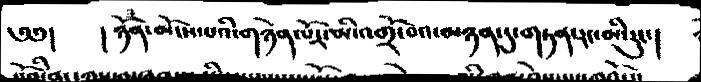༄༅།    །ཉོན་མོངས་པའི་གཉེན་པོར་མི་འགྲོ་བའ་མཉན་དུ་གཏན་རང་མི་རུང་།
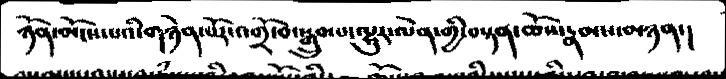ཉོན་མོངས་པའི་གཉེན་པོར་འགྲོ་བ་སྒྲུབ་པ་ལྷུར་ལེན་གྱི་བསྟན་ཆོས་རྣམས་མཉན་།
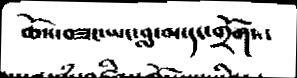ཆོས་བཟང་ཡང་བླ་བ་དང་གྲོགས་
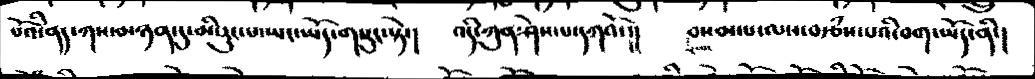པོའི་ནད་ཀས་མཉན་དུ་མི་རུང་པ་ཡང་ཡོད་གསུང་སྟེ་།    འདི་ཀུན་ཤེས་པ་དཀའོ་།།    བསམ་པ་ལས་བརྩཾས་པའི་བག་ཡོད་ནི་།
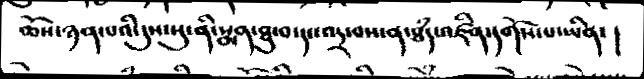ཆོས་ཉན་པའི་དུས་སུ་ནི་སྨན་ཐུ་བ་དང་འདྲ་བས་ན་ཐཾད་འཛིན་དགོས་པ་ཡིན་ །
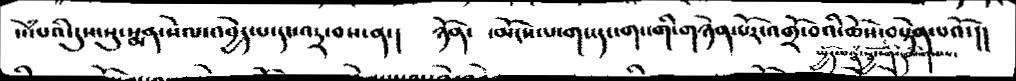སེམས་པའི་དུས་སུ་སྨན་སེལ་འབྱེད་པ་དང་འདྲ་བས་ན་།   ཉོན་   ་མོངས་པ་གང་དང་གང་གི་གཉེན་པོར་འགྲོ་བའི་ཆོས་བསྟེན་པའོ་།།
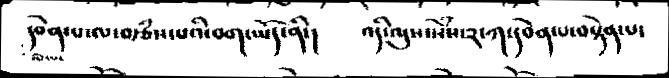ཧཧཧཧཧཧཧདབེན་པ་ལ་བརྩཾས་པའི་བག་ཡོད་ནི་།    འདི་ལུས་སེཾས་༢་ཀ་དབེན་པ་བསྟེན་པ་
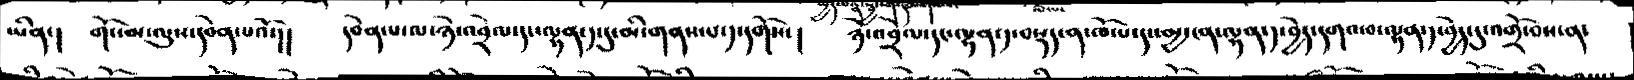ཡིན་།   གོང་མ་ལུས་དབེན་པའོ་།།    དབེན་པ་ལ་ཉེ་འབྲེལ་དང་ལྷན་༡་དུ་མི་གནས་པ་༡་དགོས་།    ཉེ་འབྲེལ་དང་ལྷན་༡་བསྡད་ན་ཁོ་པ་དང་མྱ་ངན་ལྷན་༡་བྱེད་དགའ་བ་ལྷན་༡་བྱེད་དུ་འགྲོ་བས་ན་
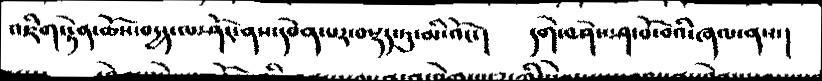འཇིག་རྟེན་ཆོས་བདྱད་ལ་ཤོང་ནས་དབེན་པར་བསྡད་ཏུ་མི་འོང་།   དགེ་བཤེས་ཤ་བོ་བའི་ཞལ་ནས་།
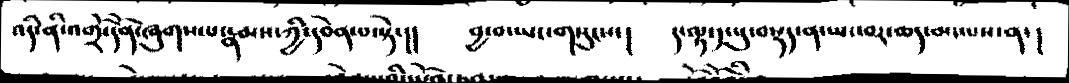འདི་ནི་འགྲོ་དོན་ཞུགས་པ་རྣམས་ཀྱི་དབེན་པ་སྟེ་།།   བྱ་བ་ཡང་གསུངས་།    ད་ལྟ་ད་སུ་བསྡད་ན་ཡང་བར་ཆད་མང་པས་ན་།
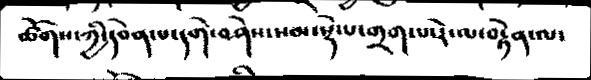ཚོགས་ཀྱི་དབེན་པ་དགེ་བཤེས་སམ་སྡེ་པ་གྲག་པ་རེ་ལ་བརྟེན་ལ་
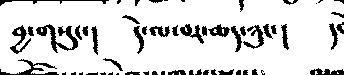བྱ་གསུང་།    དེ་ལ་བར་ཆད་ཉུང་།   ད
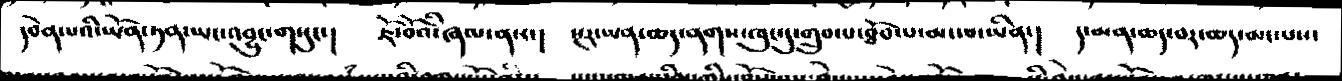དབེན་པའི་ཡོན་ཏན་ཡང་འབྱུང་གསུང་།   ཇོ་བོའི་ཞལ་ནས་།   སྔར་ཡན་ཆད་ནགས་ཁུང་དུ་གྲུབ་པ་ཐོབ་པ་མང་བ་ཡིན་།   ད་མན་ཆད་བར་ཆད་མང་པས་
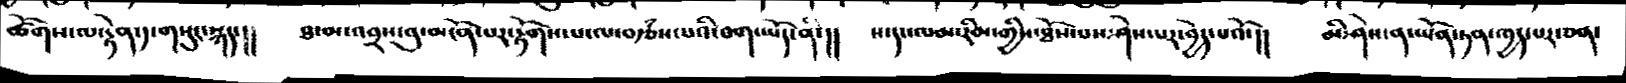ཚོགས་ལ་རྟེན་༡་གསུང་སྐད་།།   ཐ་མ་འབྲས་བུ་མངོན་པར་རྟོགས་པ་ལ་བརྩཾས་པའི་བག་ཡོད་ནི་།།   ས་དང་ལམ་རིམ་གྱིས་ཐོས་པས་ཤེས་པར་བྱེད་པའོ་།།  མི་ཤེས་ན་ཡོན་ཏན་ཁྱད་པར་ཅན་
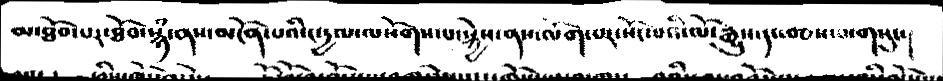མ་ཐོབ་པར་ཐོབ་སྙཾ་ནས་མངོན་པའི་ང་དྱལ་ལསོགས་པ་སྐྱེས་ནས་ལོག་པར་སོང་པའི་ལོ་རྒྱུས་དང་བཅས་པ་གསུང་།
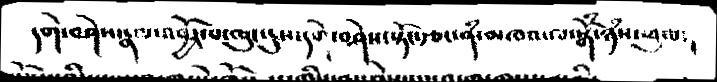དགེ་བཤེས་རྣལ་འབྱོར་པ་ཆུང་ངུས་དགེ་བཤེས་སྟོང་རྩང་ནཾ་མཁའ་ལ་སྒོཾ་ཉཾས་ཕུལ་
